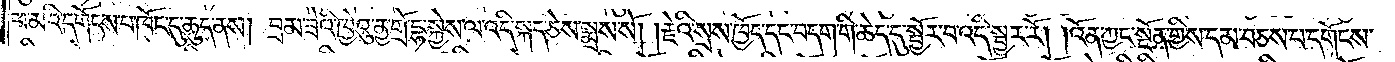ཕ་མའི་དགོངས་པ་ཁོང་དུ་ཆུད་ནས། བྲམ་ཟེའི་ཁྱེའུ་ནྱ་གྲོ་དྷ་སྐྱེས་ལ་འདི་སྐད་ཅེས་སྨྲས་སོ། །རྗེའི་སྲས་ཁྱོད་དང་བདག་གི་ཆེད་དུ་སྦྱོར་བ་འདི་སྦྱར་རོ། །འོན་ཀྱང་སྔོན་གྱིས་དམ་བཅས་པ་དགོངས་
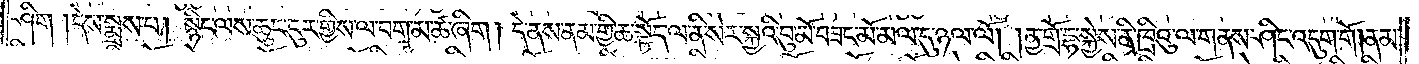ཤིག །དེས་སྨྲས་པ། སྙིང་ལས་ཆུང་ངུར་གྱིས་ལ་བག་མ་ཚ་ཞིག །དེ་ནས་ནམ་གྱི་ཆ་སྟོད་ལ་ནི་སེར་སྐྱའི་བུ་མོ་བཟང་མོ་མལ་དུ་ཉལ་ལོ། །ནྱ་གྲོ་དྷ་སྐྱེས་ནི་ཁྲིའུ་ལ་གནས་ཤིང་འདུག་གོ། ནམ་
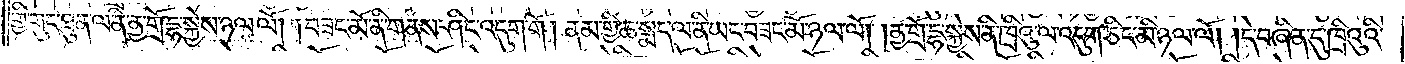གྱི་གུང་ཐུན་ལ་ནི་ནྱ་གྲོ་དྷ་སྐྱེས་ཉལ་ལོ། །བཟང་མོ་ནི་གནས་ཤིང་འདུག་གོ། ནམ་གྱི་ཆ་སྨད་ལ་ནི་ཡང་བཟང་མོ་ཉལ་ལོ། །ནྱ་གྲོ་དྷ་སྐྱེས་ནི་ཁྲིའུ་ལ་འདུག་ཅིང་མི་ཉལ་ལོ། །དེ་བཞིན་དུ་ཁྲིའུའི་
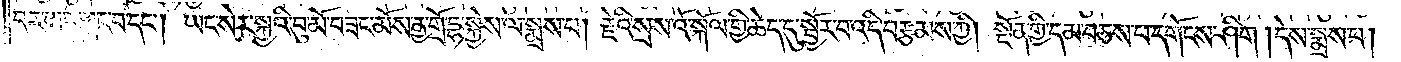བར་ཡང་ཕྱུང་བ་དང༌། ཡང་སེར་སྐྱའི་བུ་མོ་བཟང་མོས་ནྱ་གྲོ་དྷ་སྐྱེས་ལ་སྨྲས་པ། རྗེའི་སྲས་འོ་སྐོལ་གྱི་ཆེད་དུ་སྦྱོར་བ་འདི་བརྩམས་ཀྱི། སྔོན་གྱི་དམ་བཅས་པ་དགོངས་ཤིག །དེས་སྨྲས་པ།
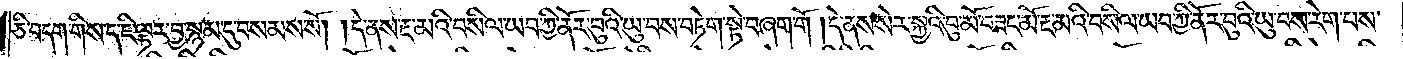ཅི་བདག་གིས་ད་ཇི་ལྟར་བྱ་སྙམ་དུ་བསམས་སོ། །དེ་ནས་རྔ་མའི་བསིལ་ཡབ་ཀྱི་ནོར་བུའི་ཡུ་བས་བཏེག་སྟེ་བཞག་གོ །དེ་ནས་སེར་སྐྱའི་བུ་མོ་བཟང་མོ་རྔ་མའི་བསིལ་ཡབ་ཀྱི་ནོར་བུའི་ཡུ་བས་རེག་པས་
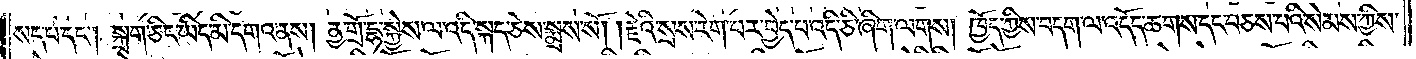སད་པ་དང༌། སྐྲག་ཅིང་ཡིད་མི་དགའ་ནས། ནྱ་གྲོ་དྷ་སྐྱེས་ལ་འདི་སྐད་ཅེས་སྨྲས་སོ། །རྗེའི་སྲས་རེག་པར་བྱེད་པ་འདི་ཅི་ཞིག་ལགས། ཁྱོད་ཀྱིས་བདག་ལ་འདོད་ཆགས་དང་བཅས་པའི་སེམས་ཀྱིས་
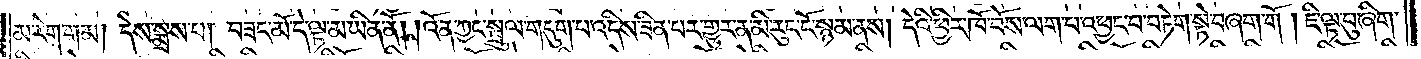མ་རེག་གམ། དེས་སྨྲས་པ། བཟང་མོ་དེ་ལྟ་མ་ཡིན་ནོ། །འོན་ཀྱང་སྦྲུལ་གདུག་པ་འདིས་ཟིན་པར་གྱུར་ན་མི་རུང་ངོ་སྙམ་ནས། དེའི་ཕྱིར་ཁོ་བོས་ལག་པ་འཕྱང་བ་བཏེག་སྟེ་བཞག་གོ །ཇི་ལྟ་བུ་ཞིག་
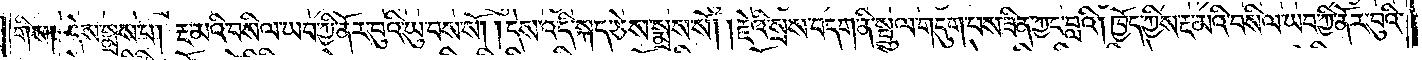གིས། དེས་སྨྲས་པ། རྔ་མའི་བསིལ་ཡབ་ཀྱི་ནོར་བུའི་ཡུ་བས་སོ། །དེས་འདི་སྐད་ཅེས་སྨྲས་སོ། །རྗེའི་སྲས་བདག་ནི་སྦྲུལ་གདུག་པས་ཟིན་ཀྱང་བླའི། ཁྱོད་ཀྱིས་རྔ་མའི་བསིལ་ཡབ་ཀྱི་ནོར་བུའི་
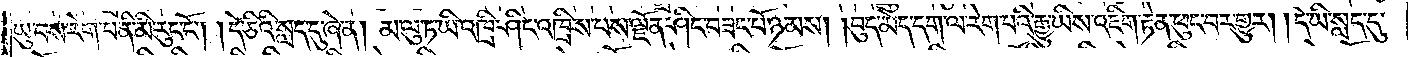ཡུ་བས་རེག་པ་ནི་མི་རུང་ངོ༌། །དེ་ཅིའི་སླད་དུ་ཞེ་ན། མ་ལུ་ཏ་ཡི་འཁྲི་ཤིང་འཁྲིས་པས་ལྗོན་ཤིང་བཟང་པོ་ཉམས། །བུད་མེད་དག་ལ་རེག་པའི་རྒྱུ་ཡིས་འཇིག་རྟེན་ཕུང་བར་གྱུར། །དེ་ཡི་སླད་དུ་
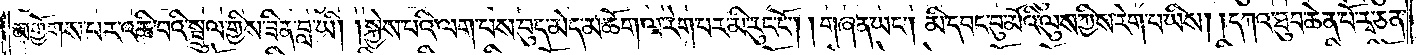མགྱོགས་པར་འཆི་བའི་སྦྲུལ་གྱིས་ཟིན་བླ་ཡི། །སྐྱེས་པའི་ལག་པས་བུད་མེད་མཆོག་ལ་རེག་པར་མི་རུང་ངོ༌། །གཞན་ཡང༌། མི་དབང་བུ་མོའི་ལུས་ཀྱིས་རེག་པ་ཡིས། །དཀའ་ཐུབ་ཆེན་པོ་རྭ་ཅན་
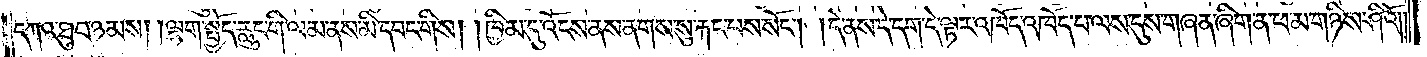དཀའ་ཐུབ་ཉམས། །ལྷག་སྤྱོད་རླུང་གི་ལམ་ནས་མི་དབང་གིས། །ཁྱིམ་དུ་འོངས་ནས་ནགས་སུ་རྐང་པས་སོང༌། །དེ་ནས་དེ་དག་དེ་ལྟར་འཁོད་འཁོད་པ་ལས་དུས་གཞན་ཞིག་ན་ཕ་མ་གཉིས་ཤིའོ༎
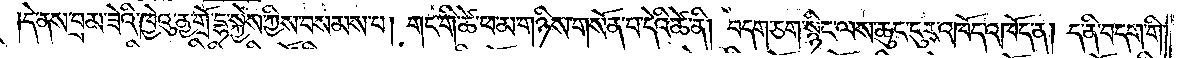དེ་ནས་བྲམ་ཟེའི་ཁྱེའུ་ནྱ་གྲོ་དྷ་སྐྱེས་ཀྱིས་བསམས་པ། གང་གི་ཚེ་ཕ་མ་གཉིས་གསོན་པ་དེའི་ཚེ་ནི། བདག་ཅག་སྙིང་ལས་ཆུང་ངུར་འཁོད་འཁོད་ན། ད་ནི་བདག་གི་
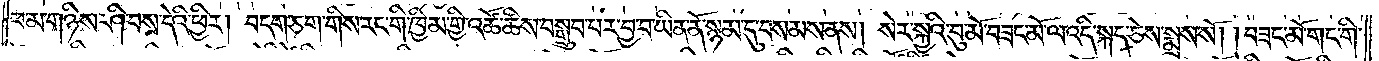ཕ་མ་གཉིས་ཤི་བས་དེའི་ཕྱིར། བདག་ཅག་གིས་རང་གི་ཁྱིམ་གྱི་འཚོ་ཚིས་བསྒྲུབ་པར་བྱ་བ་ཡིན་ནོ་སྙམ་དུ་བསམས་ནས། སེར་སྐྱའི་བུ་མོ་བཟང་མོ་ལ་འདི་སྐད་ཅེས་སྨྲས་སོ། །བཟང་མོ་གང་གི་
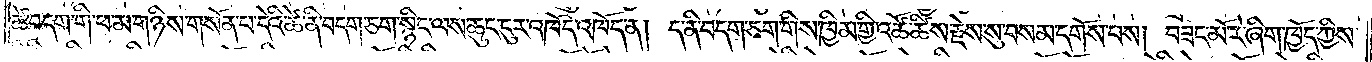ཚེ་བདག་གི་ཕ་མ་གཉིས་གསོན་པ་དེའི་ཚེ་ནི་བདག་ཅག་སྙིང་ལས་ཆུང་ངུར་འཁོད་འཁོད་ན། ད་ནི་བདག་ཅག་གིས་ཁྱིམ་གྱི་འཚོ་ཚིས་རྗེས་སུ་བསམ་དགོས་པས། བཟང་མོ་རེ་ཞིག་ཁྱོད་ཀྱིས་
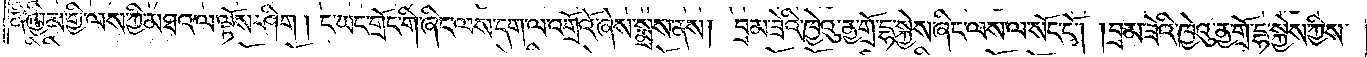ནི་ཁྱིམ་གྱི་ལས་ཀྱི་མཐའ་ལ་ལྟོས་ཤིག །ང་ཡང་གྲོང་གི་ཞིང་ལས་དག་ལ་འགྲོའོ་ཞེས་སྨྲས་ནས། བྲམ་ཟེའི་ཁྱེའུ་ནྱ་གྲོ་དྷ་སྐྱེས་ཞིང་ལས་ལ་སོང་ངོ༌། །བྲམ་ཟེའི་ཁྱེའུ་ནྱ་གྲོ་དྷ་སྐྱེས་ཀྱིས་
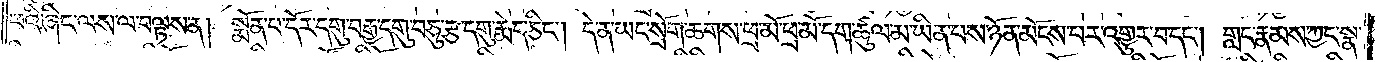ཕའི་ཞིང་ལས་ལ་བལྟས་ན། སྨོན་པ་དོར་དགུ་བརྒྱ་དགུ་བཅུ་རྩ་དགུ་རྨེད་ཅིང༌། དེ་ན་ཡང་སྲོག་ཆགས་ཕྲ་མོ་ཕྲ་མོ་དག་ཚུལ་མ་ཡིན་པས་ཉོན་མོངས་པར་འགྱུར་བ་དང༌། གླང་རྣམས་ཀྱང་སྣ་
